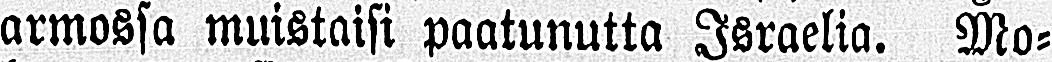armossa muistaisi paatunutta Israelia. Mo-
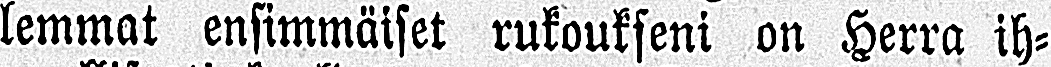lemmat ensimmäiset rukoukseni on Herra ih-
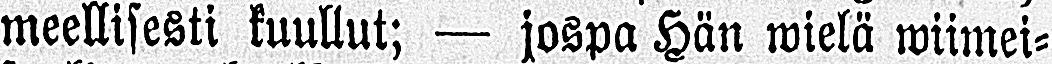meellisesti kuullut; — jospa Hän wielä wiimei-
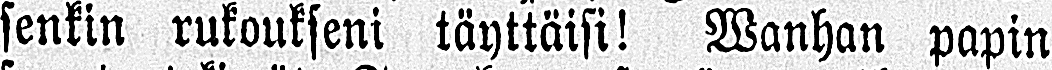senkin rukoukseni täyttäisi! Wanhan papin
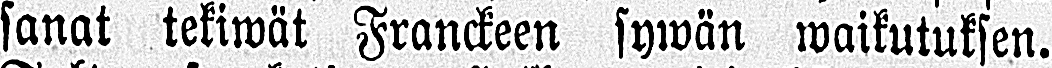sanat tekiwät Franckeen sywän waikutuksen.
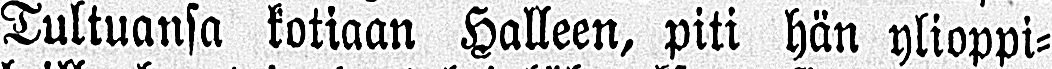Tultuansa kotiaan Halleen, piti hän ylioppi-
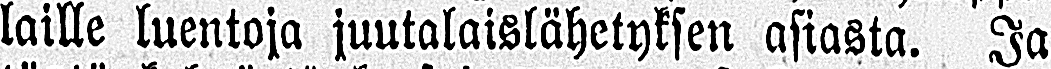laille luentoja juutalaislähetyksen asiasta. Ja
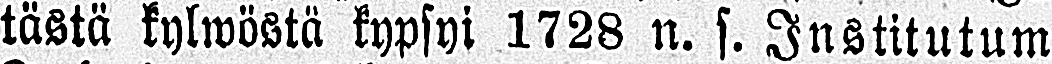tästä kylwöstä kypsyi 1728 n. s. Institutum
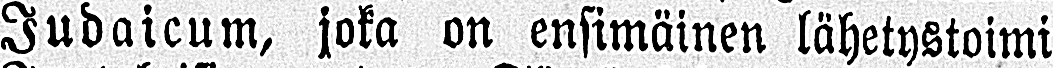Judaicum, joka on ensimäinen lähetystoimi
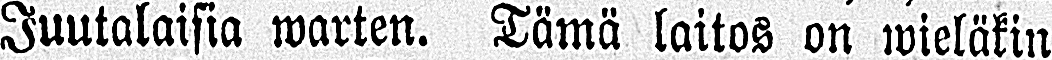Juutalaisia warten. Tämä laitos on wieläkin
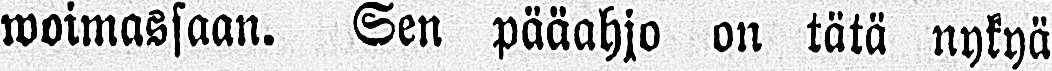woimassaan. Sen pääahjo on tätä nykyä
